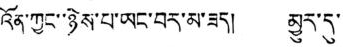འོན་ཀྱང་ཉེས་པ་ཡང་བར་མ་ཟད། མྱུར་དུ་
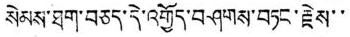སེམས་ཐག་བཅད་དེ་འགྱོད་བཤགས་བཏང་རྗེས་་
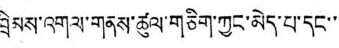ཁྲིམས་འགལ་གནས་ཚུལ་གཅིག་ཀྱང་མེད་པ་དང་་
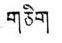གཅིག
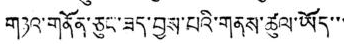གཉའ་གནོན་ཅུང་ཟད་བྱས་པའི་གནས་ཚུལ་ཡོད་་་
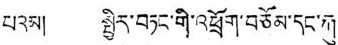པའམ། སྤྱིར་བཏང་གི་འཕྲོག་བཅོམ་དང་རྐུ་
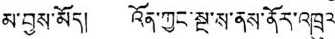མ་བྱས་མོད། འོན་ཀྱང་སྔ་ས་ནས་ནོར་འཁྲུལ་
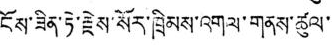ངོས་ཟིན་ཏེ་རྗེས་སོར་ཁྲིམས་འགལ་གནས་ཚུལ་་
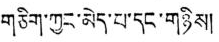གཅིག་ཀྱང་མེད་པ་དང་གཉིས།
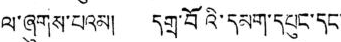ལ་ཞུགས་པའམ། དགྲ་བོའི་དམག་དཔུང་དང་
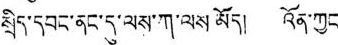སྲིད་དབང་ནང་དུ་ལས་ཀ་ལས མོད། འོན་ཀྱང་
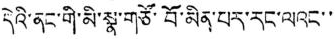དེའི་ནང་གི་མི་སྣ་གཙོ་བོ་མིན་པར་རང་ལའང་་་
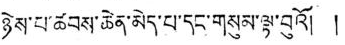ཉེས་པ་ཚབས་ཆེན་མེད་པ་དང་གསུམ་ལྟ་བུའོ། །
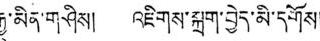རྒྱུ་མིན་གཤིས། འཇིགས་སྐྲག་བྱེད་མི་དགོས།
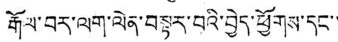རྒོལ་བར་ལག་ལེན་བསྟར་བའི་བྱེད་ཕྱོགས་དང་་་
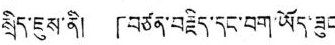སྲིད་ཇུས་ནི། 「བཙན་བརྗོད་དང་བག་ཡོད་ཟུང་
